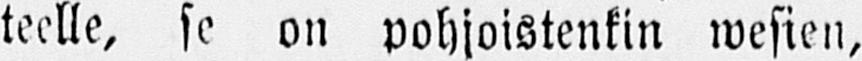teelle, se on pohjoistenkin wesien,
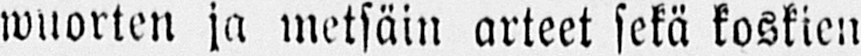wuorten ja metsäin arteet sekä koskien
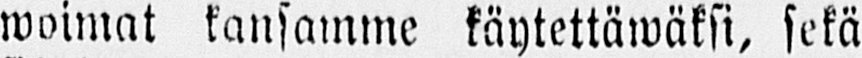woimat kansamme käytettäwäksi, sekä
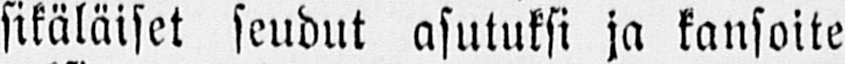sikäläiset seudut asutuksi ja kansoite-
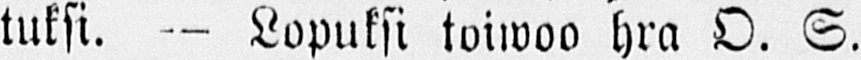tuksi. — Lopuksi toiwoo hra O. S.
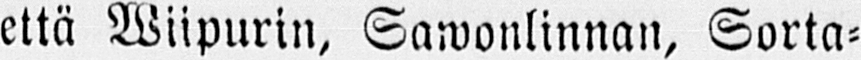että Wiipurin, Sawonlinnan, Sorta-
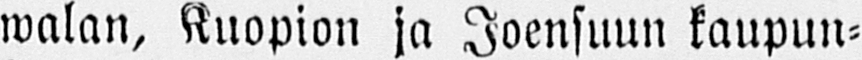walan, Kuopion ja Joensuun kaupun-
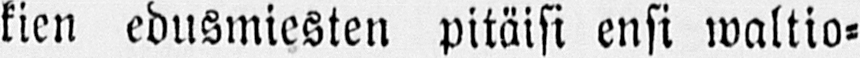kien edusmiesten pitäisi ensi waltio-
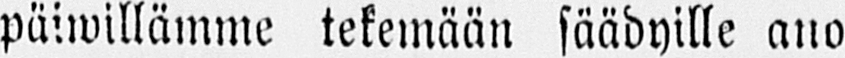päiwillämme tekemään säädyille ano
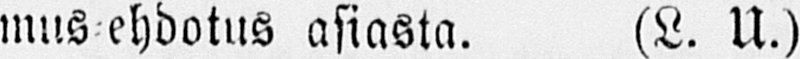mus -ehdotus asiasta. (L. U.)
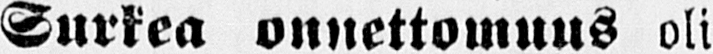— Surkea onnettomuus oli
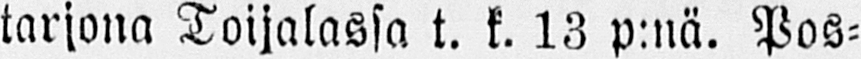tarjona Toijalassa t. k. 13 p:nä. Pos-
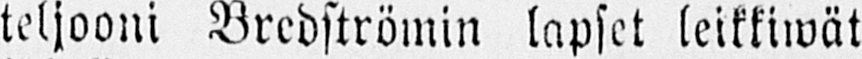teljooni Bredströmin lapset leikkiwät
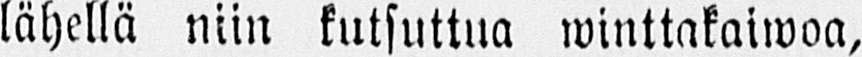lähellä niin kutsuttua winttakaiwoa,
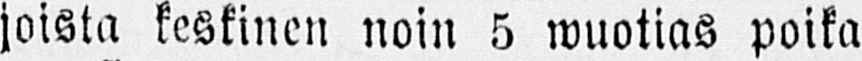joista keskinen noin 5 wuotias poika
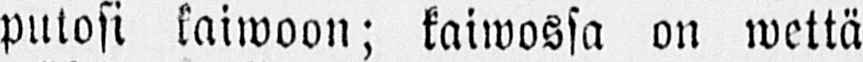putosi kaiwoon; kaiwossa on wettä
